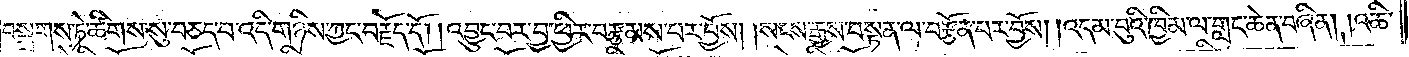བསྒྲགས་ཏེ་ཚིགས་སུ་བཅད་པ་འདི་གཉིས་ཀྱང་བརྗོད་དོ། །འབྱུང་བར་བྱ་ཕྱིར་བརྩམས་པར་བྱོས། །སངས་རྒྱས་བསྟན་ལ་བརྩོན་པར་བྱོས། །འདམ་བུའི་ཁྱིམ་ལ་གླང་ཆེན་བཞིན། །འཆི་
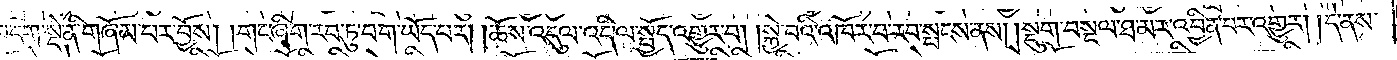བདག་སྡེ་ནི་གཞོམ་པར་བྱོས། །གང་ཞིག་རབ་ཏུ་བག་ཡོད་པར། །ཆོས་འདུལ་འདི་ལ་སྤྱོད་འགྱུར་བ། །སྐྱེ་བའི་འཁོར་བ་རབ་སྤངས་ནས། །སྡུག་བསྔལ་ཐ་མར་འབྱིན་པར་འགྱུར། །དེ་ནས་
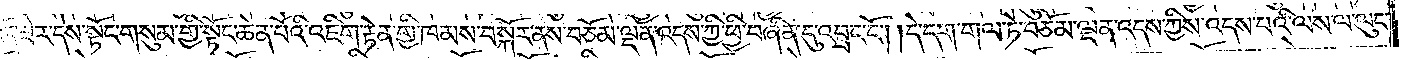འོད་ཟེར་དེས་སྟོང་གསུམ་གྱི་སྟོང་ཆེན་པོའི་འཇིག་རྟེན་གྱི་ཁམས་བསྐོར་ནས་བཅོམ་ལྡན་འདས་ཀྱི་ཕྱི་བཞིན་དུ་འབྲང་ངོ༌། །དེ་དག་གལ་ཏེ་བཅོམ་ལྡན་འདས་ཀྱིས་འདས་པའི་ལས་ལ་ལུང་
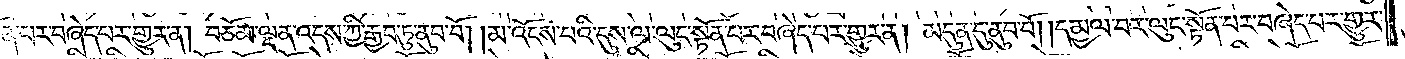སྟོན་པར་བཞེད་པར་གྱུར་ན། བཅོམ་ལྡན་འདས་ཀྱི་རྒྱབ་ཏུ་ནུབ་བོ། །མ་འོངས་པའི་དུས་ལ་ལུང་སྟོན་པར་བཞེད་པར་གྱུར་ན། མདུན་དུ་ནུབ་བོ། །དམྱལ་བར་ལུང་སྟོན་པར་བཞེད་པར་གྱུར་
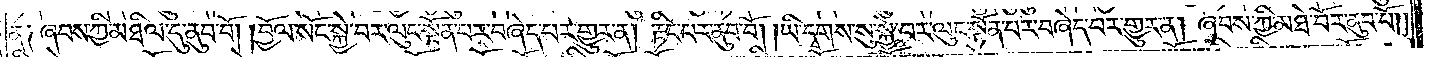ན༑ ཞབས་ཀྱི་མཐིལ་དུ་ནུབ་བོ། །བྱོལ་སོང་སྐྱེ་བར་ལུང་སྟོན་པར་བཞེད་པར་གྱུར་ན། རྟིང་པར་ནུབ་བོ། །ཡི་དྭགས་སུ་སྐྱེ་བར་ལུང་སྟོན་པར་བཞེད་པར་གྱུར་ན། ཞབས་ཀྱི་མཐེ་བོར་ནུབ་པོ། །
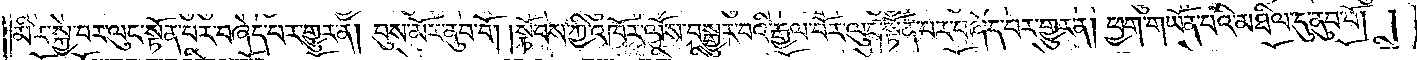མིར་སྐྱེ་བར་ལུང་སྟོན་པར་བཞེད་པར་གྱུར་ན། བུས་མོར་ནུབ་བོ། །སྟོབས་ཀྱི་འཁོར་ལོས་བསྒྱུར་བའི་རྒྱལ་པོར་ལུང་སྟོན་པར་བཞེད་པར་གྱུར་ན། ཕྱག་གཡོན་པའི་མཐིལ་དུ་ནུབ་བོ། །
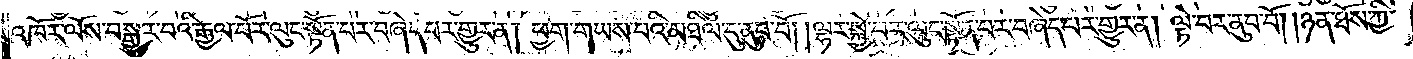འཁོར་ལོས་བསྒྱུར་བའི་རྒྱལ་པོར་ལུང་སྟོན་པར་བཞེད་པར་གྱུར་ན། ཕྱག་གཡས་པའི་མཐིལ་དུ་ནུབ་བོ། །ལྷར་སྐྱེ་བར་ལུང་སྟོན་པར་བཞེད་པར་གྱུར་ན། ལྟེ་བར་ནུབ་བོ། །ཉན་ཐོས་ཀྱི་
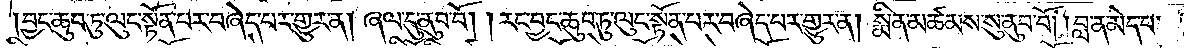བྱང་ཆུབ་ཏུ་ལུང་སྟོན་པར་བཞེད་པར་གྱུར་ན། ཞལ་དུ་ནུབ་བོ། །རང་བྱང་ཆུབ་ཏུ་ལུང་སྟོན་པར་བཞེད་པར་གྱུར་ན། སྨིན་མཚམས་སུ་ནུབ་བོ། །བླ་ན་མེད་པ་
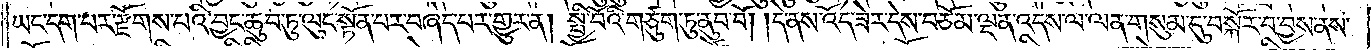ཡང་དག་པར་རྫོགས་པའི་བྱང་ཆུབ་ཏུ་ལུང་སྟོན་པར་བཞེད་པར་གྱུར་ན། སྤྱི་བོའི་གཙུག་ཏུ་ནུབ་བོ། །དེ་ནས་འོད་ཟེར་དེས་བཅོམ་ལྡན་འདས་ལ་ལན་གསུམ་དུ་བསྐོར་བ་བྱས་ནས་
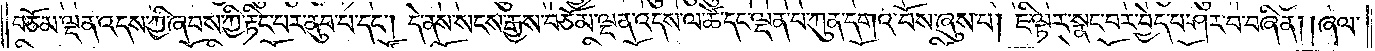བཅོམ་ལྡན་འདས་ཀྱི་ཞབས་ཀྱི་རྟིང་པར་ནུབ་པ་དང༌། དེ་ནས་སངས་རྒྱས་བཅོམ་ལྡན་འདས་ལ་ཚེ་དང་ལྡན་པ་ཀུན་དགའ་བོས་ཞུས་པ། ཇི་ལྟར་སྣང་བར་བྱེད་པ་ཤར་བ་བཞིན། །ཞལ་
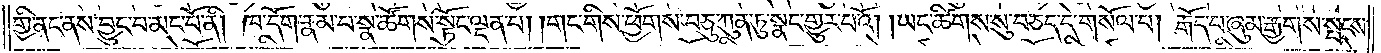གྱི་ནང་ནས་བྱུང་བ་མང་པོ་ནི། ཁ་དོག་རྣམ་པ་སྣ་ཚོགས་སྟོང་ལྡན་པ། །གང་གིས་ཕྱོགས་བཅུ་ཀུན་ཏུ་སྣང་གྱུར་པའོ། །ཡང་ཚིགས་སུ་བཅད་དེ་གསོལ་པ། རྒོད་པ་ཞུམ་རྒྱགས་སྤངས་
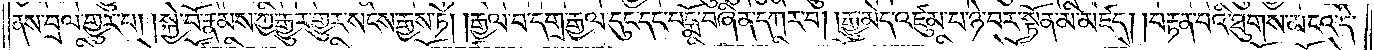ནས་བྲལ་གྱུར་པ། །སྐྱེ་བོ་རྣམས་ཀྱི་རྒྱུར་གྱུར་སངས་རྒྱས་ཏེ། །རྒྱལ་བ་དགྲ་རྒྱལ་དུང་དང་པདྨོ་བཞིན་དཀར་བ། རྒྱུ་མེད་འཛུམ་པ་ཉེ་བར་སྟོན་མི་མཛད། །བརྟན་པའི་ཐུགས་མངའ་དེ་
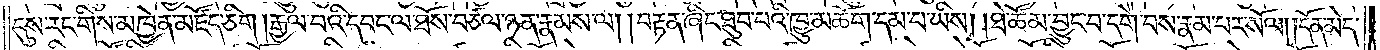དུས་རང་གིས་མཁྱེན་མཛོད་ཅིག །རྒྱལ་བའི་དབང་ལ་ཐོས་བཙལ་ཉན་རྣམས་ལ། །བརྟན་ཞིང་ཐུབ་པའི་ཁྱུ་མཆོག་དམ་པ་ཡིས། །ཐེ་ཚོམ་བྱུང་བ་དགེ་བས་རྣམ་པར་སོལ། །དོན་མེད་
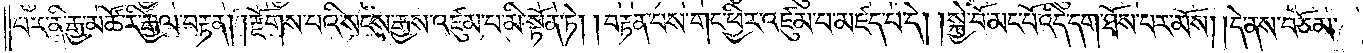པར་ནི་རྒྱ་མཚོ་རི་རྒྱལ་བརྟན། །རྫོགས་པའི་སངས་རྒྱས་འཛུམ་པ་མི་སྟོན་ཏེ། །བརྟན་པས་གང་ཕྱིར་འཛུམ་པ་མཛད་པ་དེ། །སྐྱེ་བོ་མང་པོ་འདི་དག་ཐོས་པར་མོས། །དེ་ནས་བཅོམ་
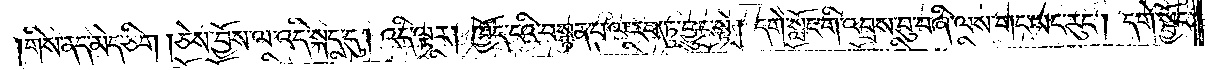གིས་ནད་མེད་ཅིག །ཅེས་བྱོས་ལ་འདི་སྐད་དུ། འདི་ལྟར། ཁྱོད་ངའི་བསྟན་པ་ལ་རབ་ཏུ་བྱུང་སྟེ། དགེ་སློང་གི་འབྲས་བུ་བཞི་ལས་གང་ཡང་རུང༌། དགེ་སྦྱོང་
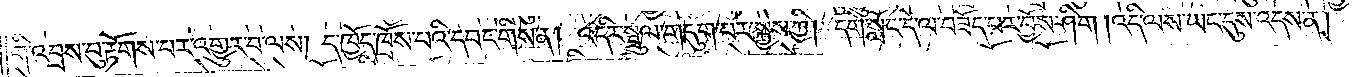གི་འབྲས་བུ་རྟོགས་པར་འགྱུར་བ་ལས། ད་ཁྱོད་ཁྲོས་པའི་དབང་གིས་ན། འདིར་སྦྲུལ་གདུག་པར་སྐྱེས་ཀྱི། དགེ་སློང་དེ་ལ་བཟོད་པར་བྱོས་ཤིག །འདི་ལས་ཡང་དུས་འདས་ན།
